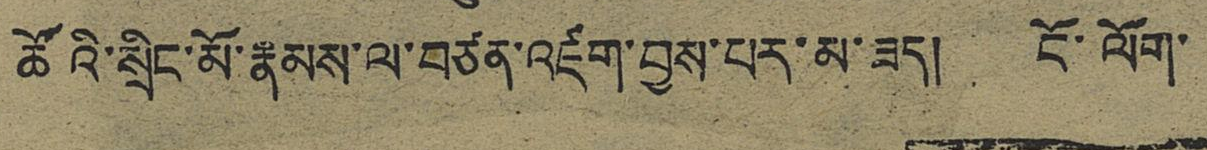ཚོའི་སྲིད་མོ་རྣམས་ལ་བཙན་འཛིག་བྱས་པར་མ་ཟད། ངོ་ལོག་
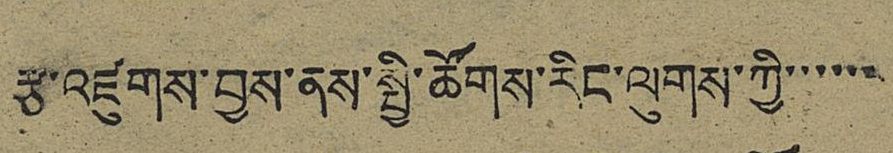རྩ་འཛུགས་བྱས་ནས་སྤྱི་ཚོགས་རིང་ལུས་ཀྱི་་་་་་
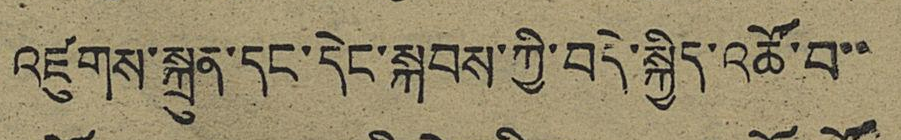འཛུགས་སྐྲུན་དང་དེང་སྐབས་ཀྱི་བདེ་སྐྱིད་འཚོ་བ་་
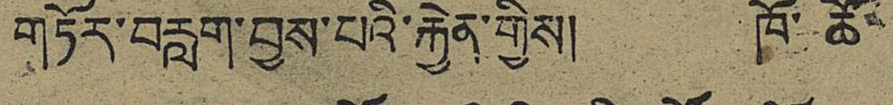གཏོར་བརླག་བྱས་པའི་རྐྱེན་གྱིས། ཁོ་ཚོ་
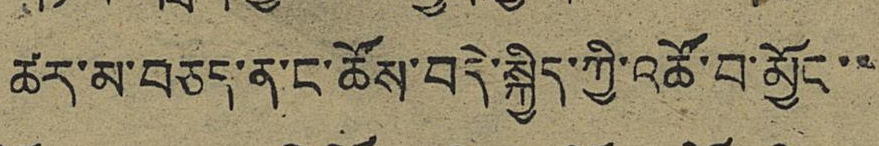ཚར་མ་བཅད་ན་ང་ཚོས་བདེ་སྐྱིད་ཀྱི་འཚོབ་མྱོང་་
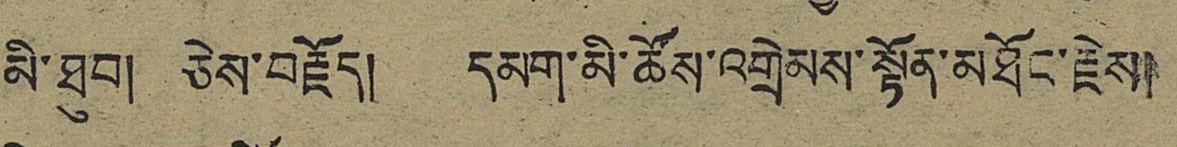མི་ཐུབ། ཅེས་བརྗོད། དམག་མི་ཚོས་འགྲེམས་སྟོན་མཐོང་རྗེས།
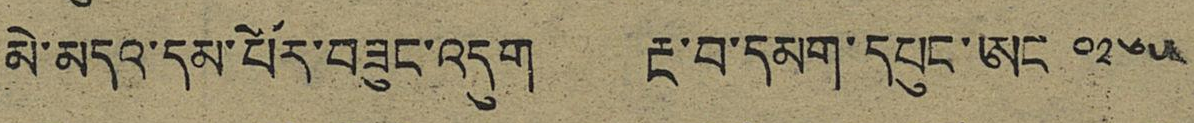མེ་མདའ་དམ་པོར་བཟུང་འདུག རྔ་བ་དམག་དཔུང་ཨང ༠༢༦༥
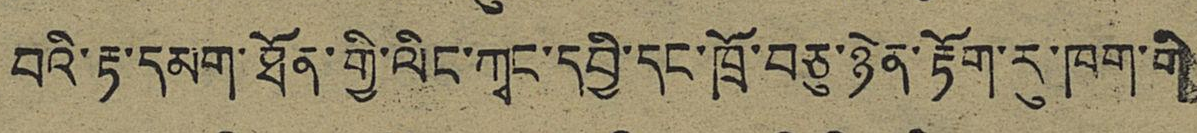བའི་རྟ་དམག་ཐོན་གྱི་ལིང་ཀྲང་དབྱི་དང་ཁྲོ་བཅུ་ཉེན་རྟོག་རུ་ཁག་གི
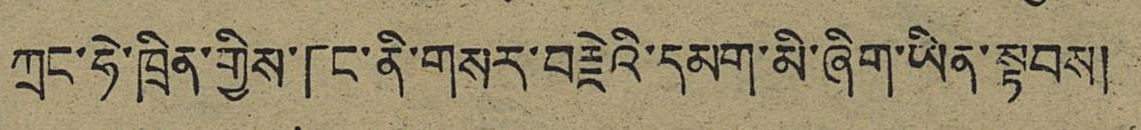ཀྲུང་ཧེ་ཁྲིན་གྱིས་「ང་ནི་གསར་བརྗེའི་དམག་མི་ཞིག་ཡིན་སྟབས།
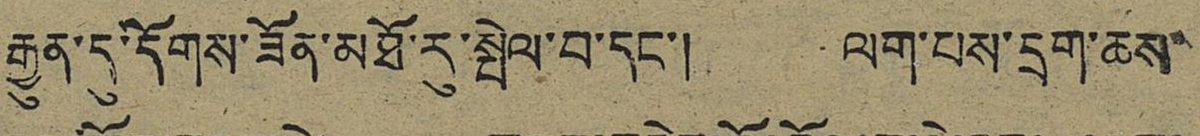རྒྱུན་དུ་དོགས་ཟོན་མཐོ་རུ་སྤེལ་བ་དང་། ལག་པས་དྲག་ཆས་
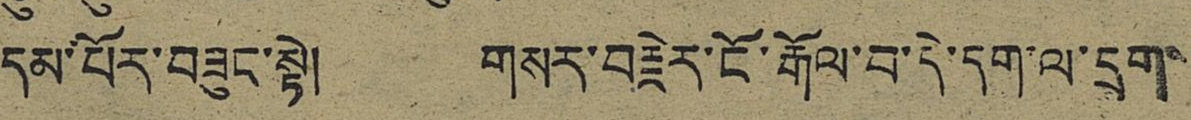དམ་པོར་བཟུང་སྟ། གསར་བརྗེར་ངོ་རྒོལ་བ་དེ་དག་ལ་དྲུག་
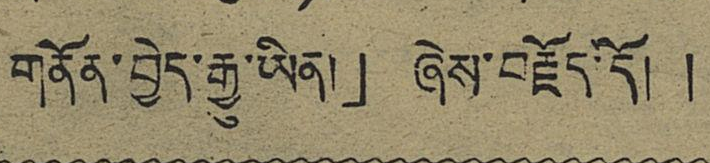གནོན་བྱེད་རྒྱུ་ཡིན།」 ཞེས་བརྗོད་དོ། །
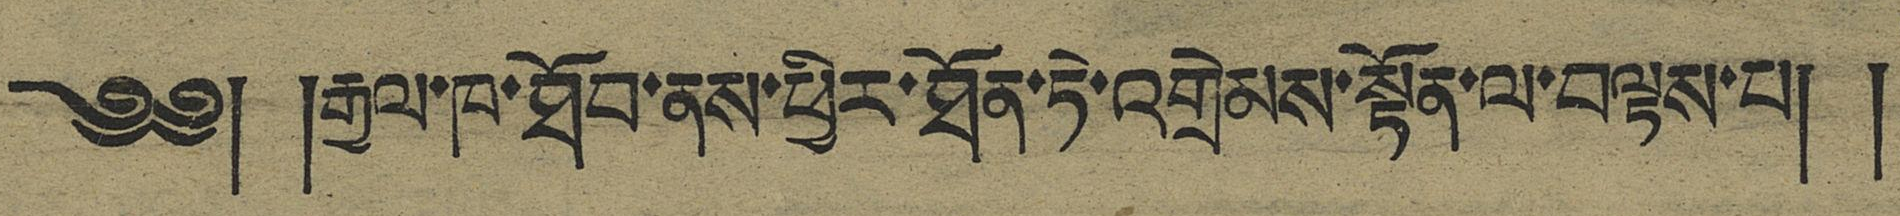༄༅། །རྒྱལ་ཁ་ཐོབ་ནས་ཕྱིར་ཐོན་ཏེ་འགྲེམས་སྟོན་ལ་བལྟས་པ། །
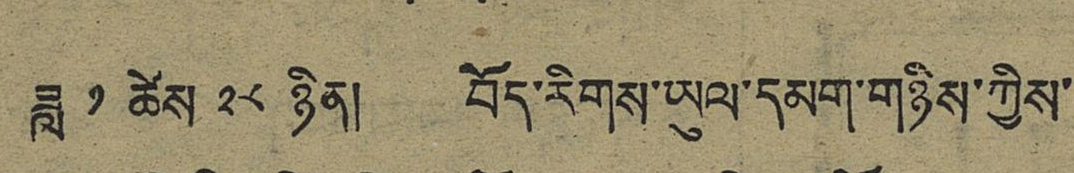ཟླ ༡ ཚེས ༢༨ ཉིན། བོད་རིགས་ཡུལ་དམག་གཉིས་ཀྱིས་
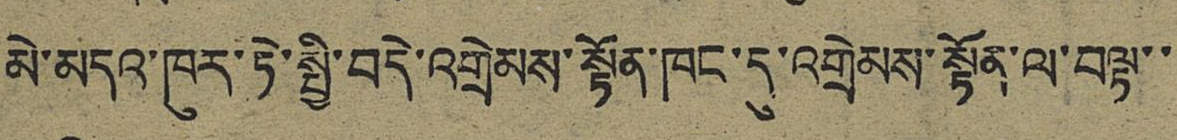མེ་མདའ་ཁུར་ཏེ་སྤྱི་བདེ་འགྲེམས་སྟོན་ཁང་དུ་འགྲེམས་སྟོན་ལ་བལྟ་་
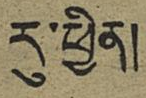རུ་ཕྱིན།
